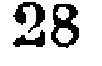28
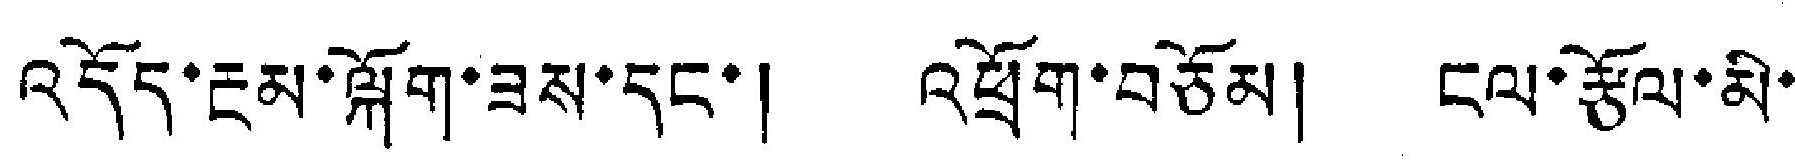འདོད་རྔམ་ལྐོག་ཟས་དང་། འཕྲོག་བཅོམ། ངལ་རྩོལ་མི་
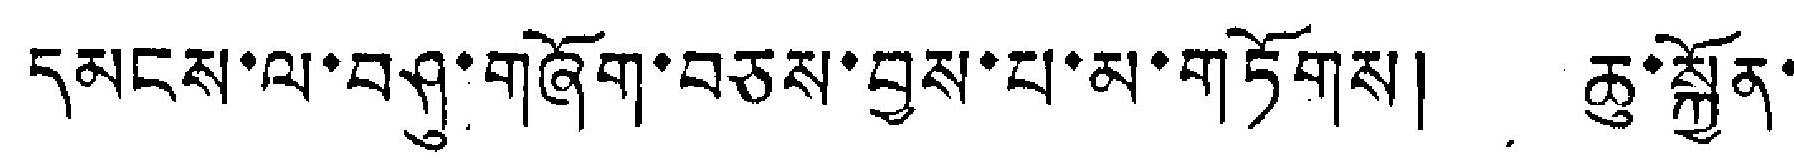དམངས་ལ་བཤུ་གཞོག་བཅས་བྱས་པ་མ་གཏོགས། ཆུ་སྐྱོན་
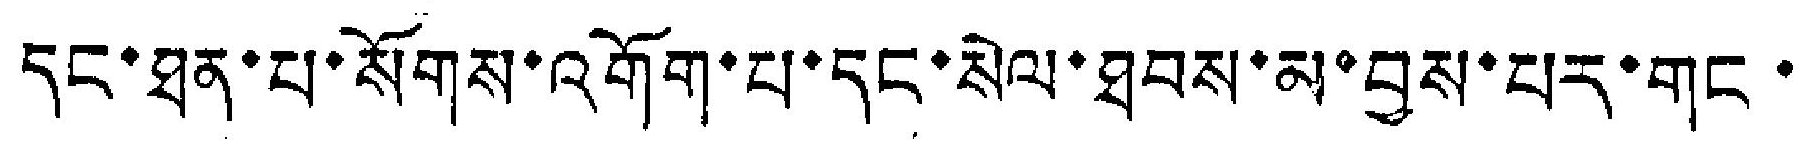དང་ཐན་པ་སོགས་འགོག་པ་དང་སེལ་ཐབས་མ་བྱས་པར་གང་
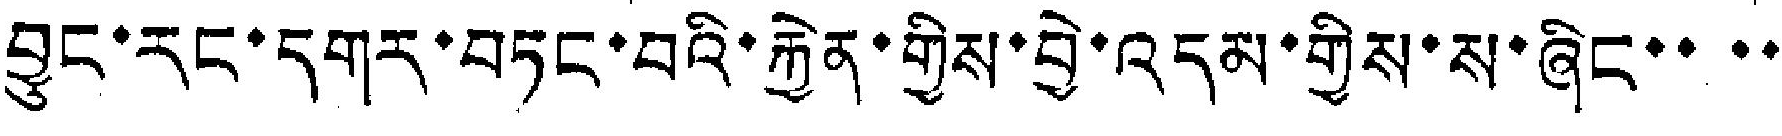བྱུང་རང་དགར་བཏང་བའི་རྐྱེན་གྱིས་བྱེ་འདམ་གྱིས་ས་ཞིང་་་་
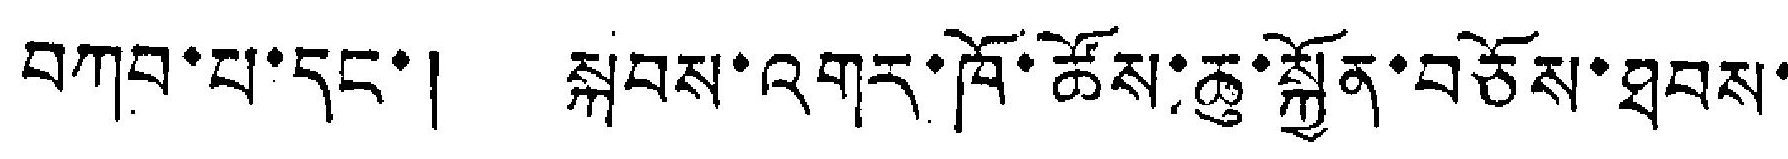བཀབ་པ་དང་། སྐབས་འགར་ཁོ་ཚོས་ཆུ་སྐྱོན་བཅོས་ཐབས་
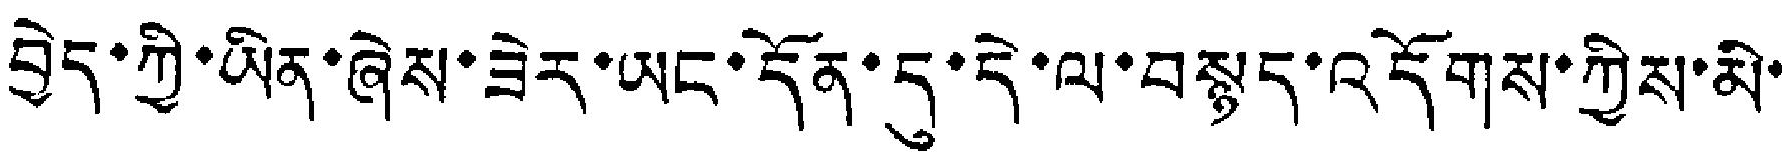བྱེད་ཀྱི་ཡིན་ཞེས་ཟེར་ཡང་དོན་དུ་དེ་ལ་བསྙད་འདོགས་ཀྱིས་མི་
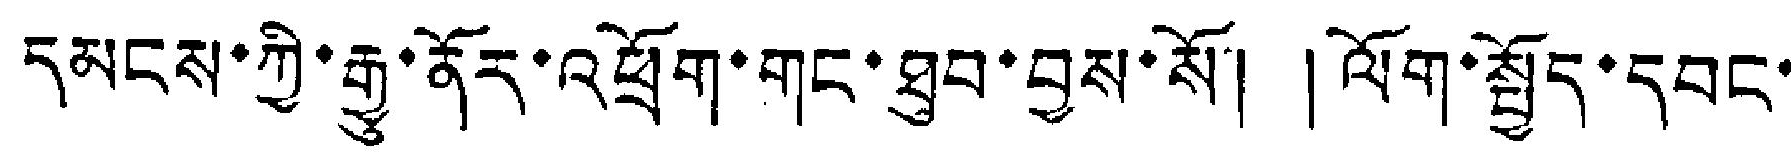དམངས་ཀྱི་རྒྱུ་ནོར་འཕྲོག་གང་ཐུབ་བྱས་སོ། །ལོག་སྤྱོད་དབང་
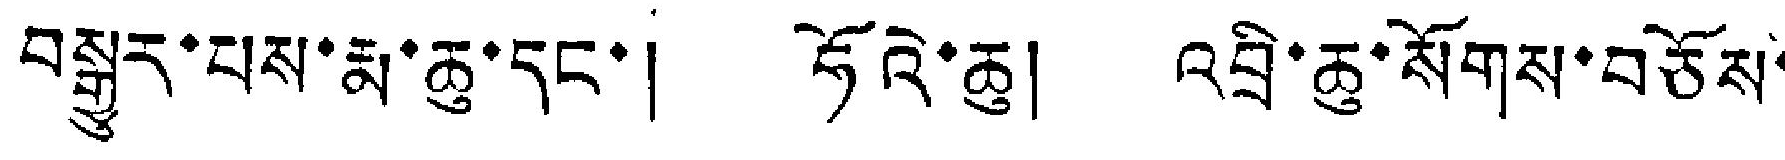བསྒྱུར་པས་རྨ་ཆུ་དང་། ཧོའེ་ཆུ། འབྲི་ཆུ་སོགས་བཅོས་
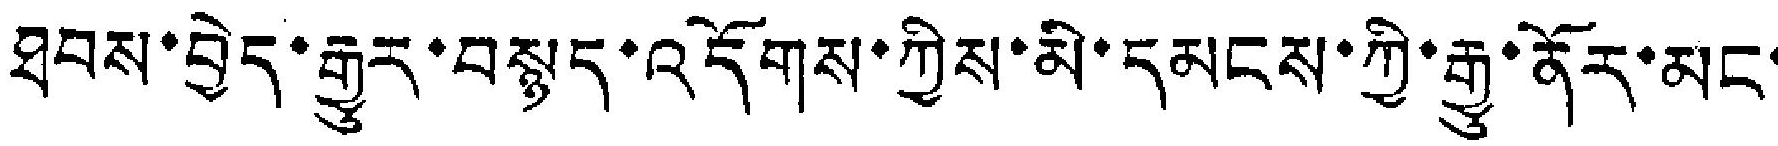ཐབས་བྱེད་རྒྱུར་བསྙད་འདོགས་ཀྱིས་མི་དམངས་ཀྱི་རྒྱུ་ནོར་མང་
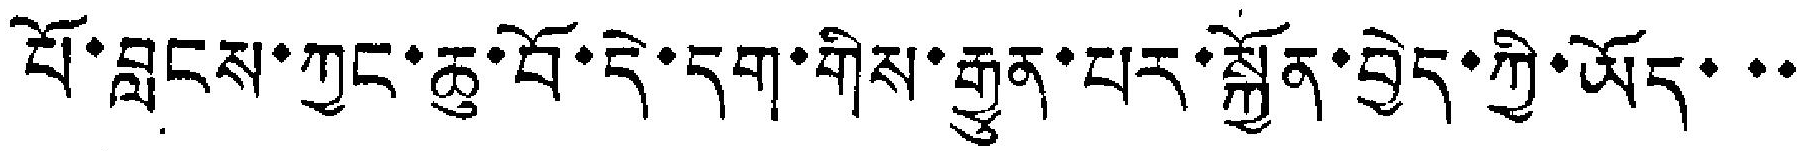པོ་བླངས་ཀྱང་ཆུ་བོ་དེ་དག་གིས་རྒྱུན་པར་སྐྱོན་བྱེད་ཀྱི་ཡོད་་་
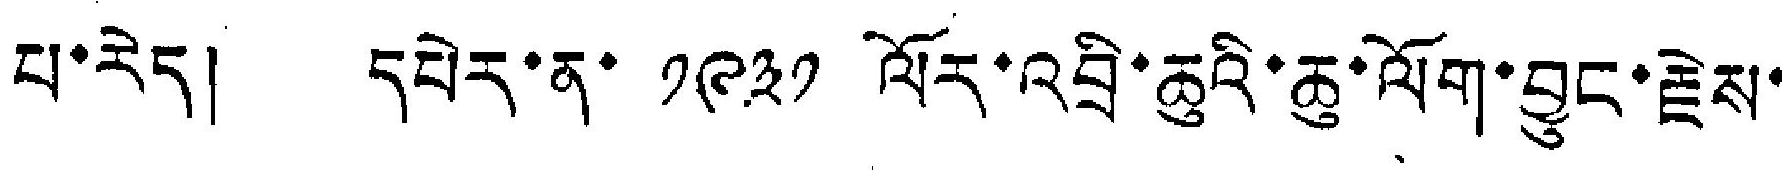པ་རེད། དཔེར་ན་ ༡༩༣༡ ལོར་འབྲི་ཆུའི་ཆུ་ལོག་བྱུང་རྗེས་
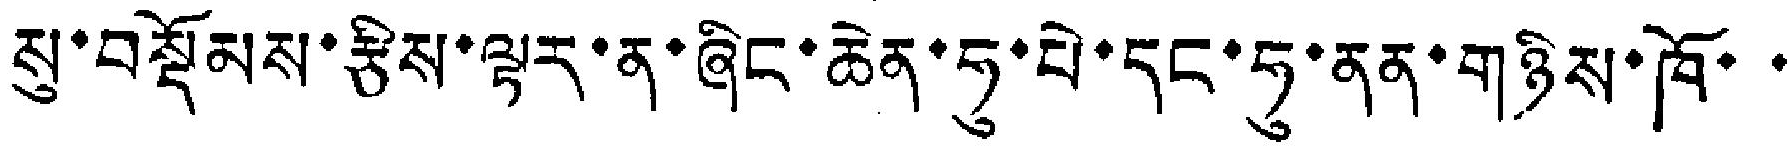སུ་བསྡོམས་རྩིས་ལྟར་ན་ཞིང་ཆེན་ཧུ་པེ་དང་ཧུ་ནན་གཉིས་ཁོ་་
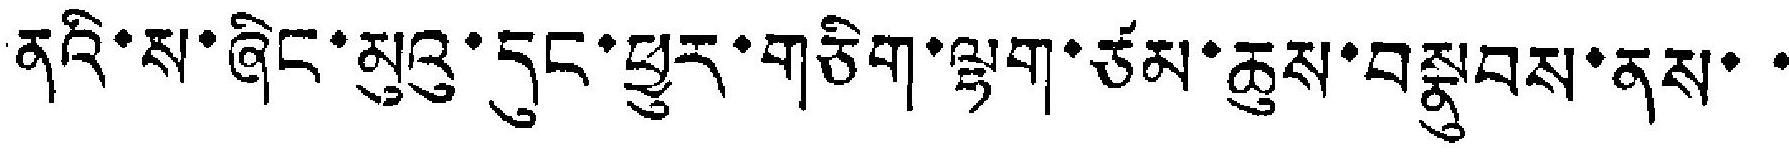ནའི་ས་ཞིང་མུའུ་དུང་ཕྱུར་གཅིག་ལྷག་ཙམ་ཆུས་བསྣུབས་ནས་་
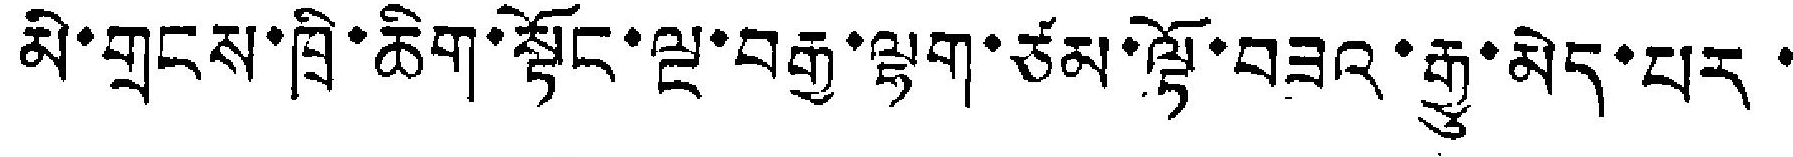མི་གྲངས་ཁྲི་ཆིག་སྟོང་ལྔ་བརྒྱ་ལྷག་ཙམ་ལྟོ་བཟའ་རྒྱུ་མེད་པར་
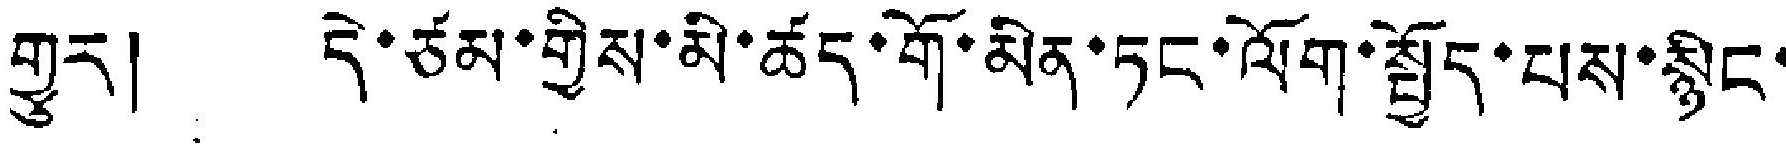གྱུར། དེ་ཙམ་གྱིས་མི་ཚད་གོ་མིན་ཏང་ལོག་སྤྱོད་པས་སྙིང་
